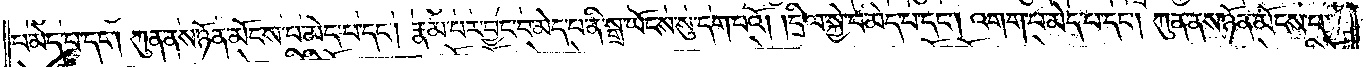པ་མེད་པ་དང༌། ཀུན་ནས་ཉོན་མོངས་པ་མེད་པ་དང༌། རྣམ་པར་བྱང་བ་མེད་པ་ནི་སྒྲ་ཡོངས་སུ་དག་པའོ། །དྲི་ལ་སྐྱེ་བ་མེད་པ་དང༌། འགག་པ་མེད་པ་དང༌། ཀུན་ནས་ཉོན་མོངས་པ་
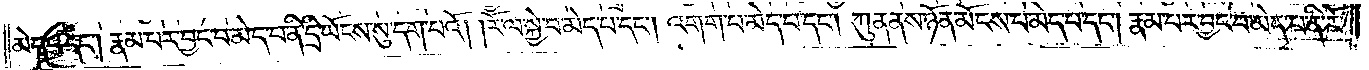མེད་པ་དང༌། རྣམ་པར་བྱང་བ་མེད་པ་ནི་དྲི་ཡོངས་སུ་དག་པའོ། །རོ་ལ་སྐྱེ་བ་མེད་པ་དང༌། འགག་པ་མེད་པ་དང༌། ཀུན་ནས་ཉོན་མོངས་པ་མེད་པ་དང༌། རྣམ་པར་བྱང་བ་མེད་པ་ནི་རོ་
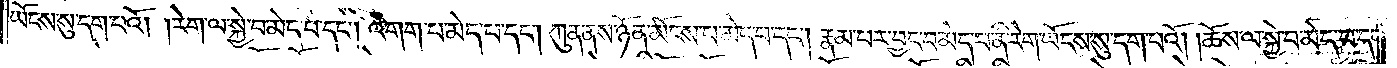ཡོངས་སུ་དག་པའོ། །རེག་ལ་སྐྱེ་བ་མེད་པ་དང༌། འགག་པ་མེད་པ་དང༌། ཀུན་ནས་ཉོན་མོངས་པ་མེད་པ་དང༌། རྣམ་པར་བྱང་བ་མེད་པ་ནི་རེག་ཡོངས་སུ་དག་པའོ། །ཆོས་ལ་སྐྱེ་བ་མེད་པ་དང༌།
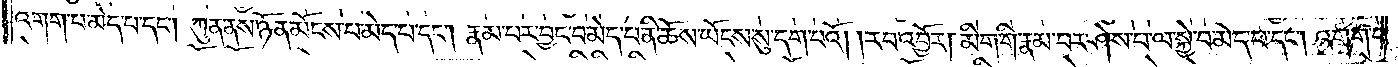འགག་པ་མེད་པ་དང༌། ཀུན་ནས་ཉོན་མོངས་པ་མེད་པ་དང༌། རྣམ་པར་བྱང་བ་མེད་པ་ནི་ཆོས་ཡོངས་སུ་དག་པའོ། །རབ་འབྱོར། མིག་གི་རྣམ་པར་ཤེས་པ་ལ་སྐྱེ་བ་མེད་པ་དང༌། འགག་པ་
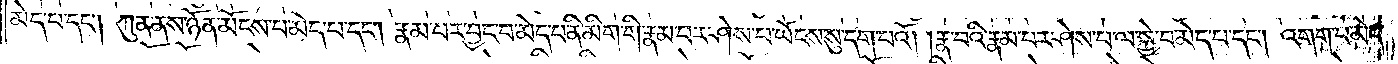མེད་པ་དང༌། ཀུན་ནས་ཉོན་མོངས་པ་མེད་པ་དང༌། རྣམ་པར་བྱང་བ་མེད་པ་ནི་མིག་གི་རྣམ་པར་ཤེས་པ་ཡོངས་སུ་དག་པའོ། །རྣ་བའི་རྣམ་པར་ཤེས་པ་ལ་སྐྱེ་བ་མེད་པ་དང༌། འགག་པ་མེད་
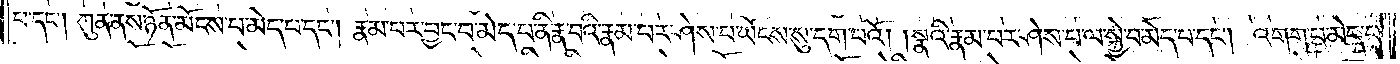པ་དང༌། ཀུན་ནས་ཉོན་མོངས་པ་མེད་པ་དང༌། རྣམ་པར་བྱང་བ་མེད་པ་ནི་རྣ་བའི་རྣམ་པར་ཤེས་པ་ཡོངས་སུ་དག་པའོ། །སྣའི་རྣམ་པར་ཤེས་པ་ལ་སྐྱེ་བ་མེད་པ་དང༌། འགག་པ་མེད་པ་
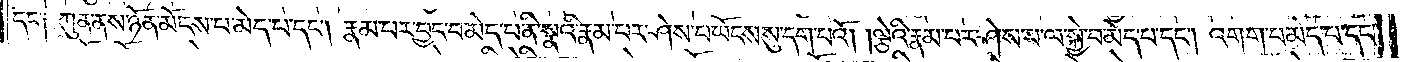དང་༑ ཀུན་ནས་ཉོན་མོངས་པ་མེད་པ་དང༌། རྣམ་པར་བྱང་བ་མེད་པ་ནི་སྣའི་རྣམ་པར་ཤེས་པ་ཡོངས་སུ་དག་པའོ། །ལྕེའི་རྣམ་པར་ཤེས་པ་ལ་སྐྱེ་བ་མེད་པ་དང༌། འགག་པ་མེད་པ་དང༌།
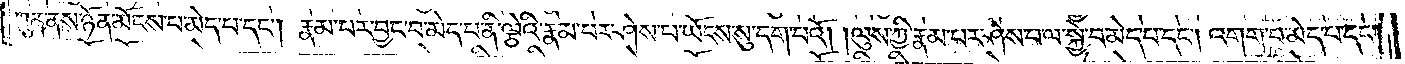ཀུན་ནས་ཉོན་མོངས་པ་མེད་པ་དང༌། རྣམ་པར་བྱང་བ་མེད་པ་ནི་ལྕེའི་རྣམ་པར་ཤེས་པ་ཡོངས་སུ་དག་པའོ། །ལུས་ཀྱི་རྣམ་པར་ཤེས་པ་ལ་སྐྱེ་བ་མེད་པ་དང༌། འགག་པ་མེད་པ་དང༌།
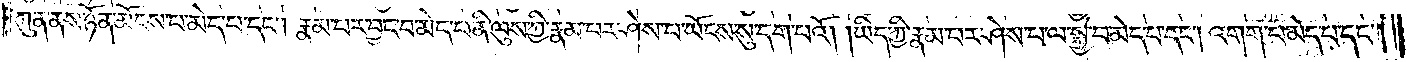ཀུན་ནས་ཉོན་མོངས་པ་མེད་པ་དང༌། རྣམ་པར་བྱང་བ་མེད་པ་ནི་ལུས་ཀྱི་རྣམ་པར་ཤེས་པ་ཡོངས་སུ་དག་པའོ། །ཡིད་ཀྱི་རྣམ་པར་ཤེས་པ་ལ་སྐྱེ་བ་མེད་པ་དང༌། འགག་པ་མེད་པ་དང༌།
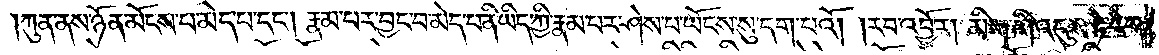ཀུན་ནས་ཉོན་མོངས་པ་མེད་པ་དང༌། རྣམ་པར་བྱང་བ་མེད་པ་ནི་ཡིད་ཀྱི་རྣམ་པར་ཤེས་པ་ཡོངས་སུ་དག་པའོ། །རབ་འབྱོར། མིག་གི་འདུས་ཏེ་རེག་
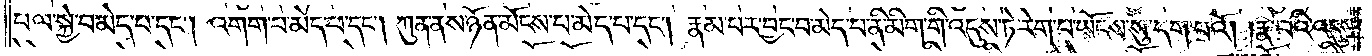པ་ལ་སྐྱེ་བ་མེད་པ་དང༌། འགག་པ་མེད་པ་དང༌། ཀུན་ནས་ཉོན་མོངས་པ་མེད་པ་དང༌། རྣམ་པར་བྱང་བ་མེད་པ་ནི་མིག་གི་འདུས་ཏེ་རེག་པ་ཡོངས་སུ་དག་པའོ། །རྣ་བའི་འདུས་
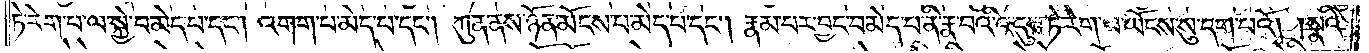ཏེ་རེག་པ་ལ་སྐྱེ་བ་མེད་པ་དང༌། འགག་པ་མེད་པ་དང༌། ཀུན་ནས་ཉོན་མོངས་པ་མེད་པ་དང༌། རྣམ་པར་བྱང་བ་མེད་པ་ནི་རྣ་བའི་འདུས་ཏེ་རེག་པ་ཡོངས་སུ་དག་པའོ། །སྣའི་
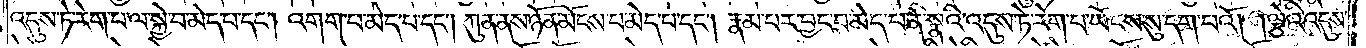འདུས་ཏེ་རེག་པ་ལ་སྐྱེ་བ་མེད་པ་དང༌། འགག་པ་མེད་པ་དང༌། ཀུན་ནས་ཉོན་མོངས་པ་མེད་པ་དང༌། རྣམ་པར་བྱང་བ་མེད་པ་ནི་སྣའི་འདུས་ཏེ་རེག་པ་ཡོངས་སུ་དག་པའོ། །ལྕེའི་འདུས་
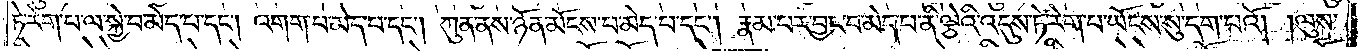ཏེ་རེག་པ་ལ་སྐྱེ་བ་མེད་པ་དང༌། འགག་པ་མེད་པ་དང༌། ཀུན་ནས་ཉོན་མོངས་པ་མེད་པ་དང༌། རྣམ་པར་བྱང་བ་མེད་པ་ནི་ལྕེའི་འདུས་ཏེ་རེག་པ་ཡོངས་སུ་དག་པའོ། །ལུས་
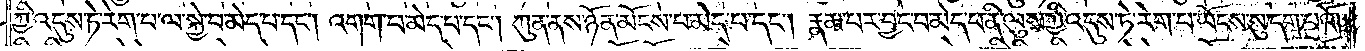ཀྱི་འདུས་ཏེ་རེག་པ་ལ་སྐྱེ་བ་མེད་པ་དང༌། འགག་པ་མེད་པ་དང༌། ཀུན་ནས་ཉོན་མོངས་པ་མེད་པ་དང༌། རྣམ་པར་བྱང་བ་མེད་པ་ནི་ལུས་ཀྱི་འདུས་ཏེ་རེག་པ་ཡོངས་སུ་དག་པའོ། །
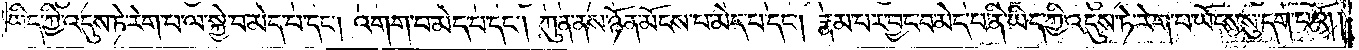ཡིད་ཀྱི་འདུས་ཏེ་རེག་པ་ལ་སྐྱེ་བ་མེད་པ་དང༌། འགག་པ་མེད་པ་དང༌། ཀུན་ནས་ཉོན་མོངས་པ་མེད་པ་དང༌། རྣམ་པར་བྱང་བ་མེད་པ་ནི་ཡིད་ཀྱི་འདུས་ཏེ་རེག་པ་ཡོངས་སུ་དག་པའོ། །
